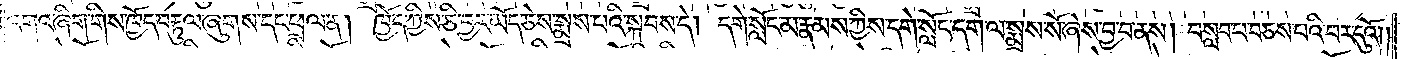འགའ་ཞིག་གིས་ཁྱོད་བརྟུལ་ཞུགས་དང་ཕྲལ་ན། ཁྱོད་ཀྱིས་ཅི་བྱར་ཡོད་ཅེས་སྨྲས་པའི་སྐབས་དེ། དགེ་སློང་མ་རྣམས་ཀྱིས་དགེ་སློང་དག་ལ་སྨྲས་སོ་ཞེས་བྱ་བ་ནས། བསླབ་པ་བཅས་པའི་བར་དུའོ༎
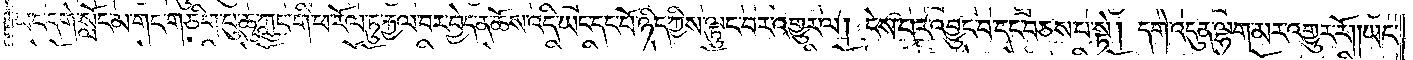ཡང་དགེ་སློང་མ་གང་གཅིག་པུ་ཆུ་ཀླུང་གི་ཕ་རོལ་ཏུ་རྐྱལ་བར་བྱེད་ན་ཆོས་འདི་ཡང་དང་པོ་ཉིད་ཀྱིས་ལྟུང་བར་འགྱུར་ལ། ངེས་པར་འབྱུང་བ་དང་བཅས་པ་སྟེ། དགེ་འདུན་ལྷག་མར་འགྱུར་རོ། །ཡང་
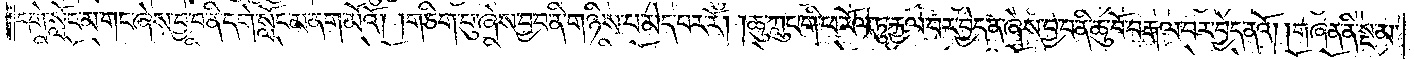དགེ་སློང་མ་གང་ཞེས་བྱ་བ་ནི་དགེ་སློང་མ་ནག་མོའོ། །གཅིག་པུ་ཞེས་བྱ་བ་ནི་གཉིས་པ་མེད་པར་རོ། །ཆུ་ཀླུང་གི་ཕ་རོལ་ཏུ་རྐྱལ་བར་བྱེད་ན་ཞེས་བྱ་བ་ནི་ཆུ་བོ་བརྒལ་བར་བྱེད་ནའོ། །གཞན་ནི་སྔ་མ་
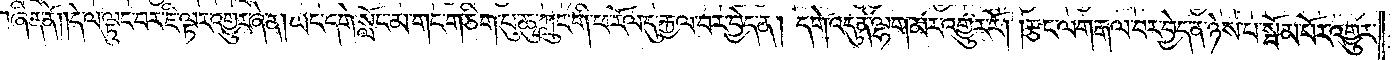བཞིན་ནོ། །དེ་ལ་ལྟུང་བར་ཇི་ལྟར་འགྱུར་ཞེ་ན། ཡང་དགེ་སློང་མ་གང་གཅིག་པུ་ཆུ་ཀླུང་གི་ཕ་རོལ་དུ་རྐྱལ་བར་བྱེད་ན། དགེ་འདུན་ལྷག་མར་འགྱུར་རོ། །རྩང་ལག་རྒལ་བར་བྱེད་ན་ཉེས་པ་སྦོམ་པོར་འགྱུར་
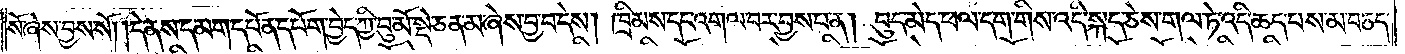སོ་ཞེས་བྱས་སོ། །དེ་ནས་དམག་དཔོན་དཔོག་བྱེད་ཀྱི་བུ་མོ་སྡེ་ཅན་མ་ཞེས་བྱ་བ་དེས། ཁྲིམས་དང་འགལ་བར་བྱས་པ་ན། བུད་མེད་ཕལ་དག་གིས་འདི་སྐད་ཅེས་གལ་ཏེ་འདི་ཆད་པས་མ་བཅད་
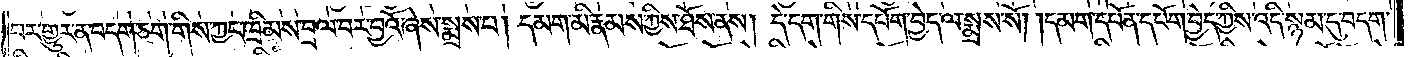པར་གྱུར་ན་བདག་ཅག་གིས་ཀྱང་ཁྲིམས་བྲལ་བར་བྱའོ་ཞེས་སྨྲས་པ། དམག་མི་རྣམས་ཀྱིས་ཐོས་ནས། དེ་དག་གིས་དཔོག་བྱེད་ལ་སྨྲས་སོ། །དམག་དཔོན་དཔོག་བྱེད་ཀྱིས་འདི་སྙམ་དུ་བདག་
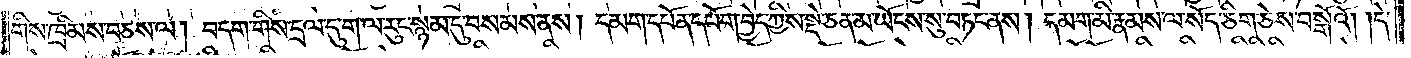གིས་ཁྲིམས་བཅས་ལ། བདག་གིས་དྲལ་དུག་ལ་རུང་སྙམ་དུ་བསམས་ནས། དམག་དཔོན་དཔོག་བྱེད་ཀྱིས་སྡེ་ཅན་མ་ཡོངས་སུ་བཏང་ནས། དམག་མི་རྣམས་ལ་སོད་ཅིག་ཅེས་བསྒོའོ། །དེ་
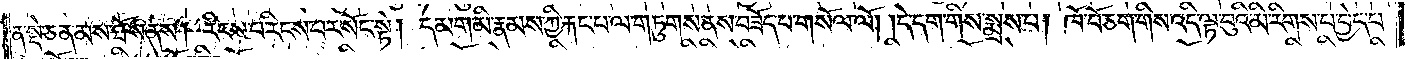ན་སྡེ་ཅན་མས་ཐོས་ནས། རིངས་པ་རིངས་པར་སོང་སྟེ། དམག་མི་རྣམས་ཀྱི་རྐང་པ་ལ་གཏུགས་ནས་བཟོད་པ་གསོལ་ལོ། །དེ་དག་གིས་སྨྲས་པ། ཁོ་བོ་ཅག་གིས་འདི་ལྟ་བུའི་མི་རིགས་པ་བྱེད་པ་
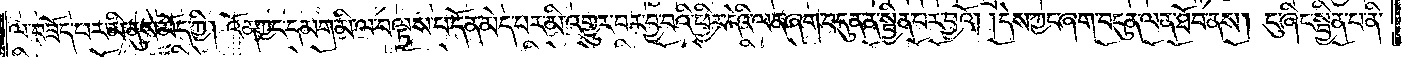ལ་བཟོད་པར་མི་ནུས་མོད་ཀྱི། འོན་ཀྱང་དམག་མི་ལ་བལྟས་པ་དོན་མེད་པར་མི་འགྱུར་བར་བྱ་བའི་ཕྱིར་དེའི་ལན་ཞག་བདུན་ན་སྦྱིན་པར་བྱའོ། །དེས་ཀྱང་ཞག་བདུན་ལན་ཐོབ་ནས། ངུ་ཞིང་སྦྱིན་པ་ནི་
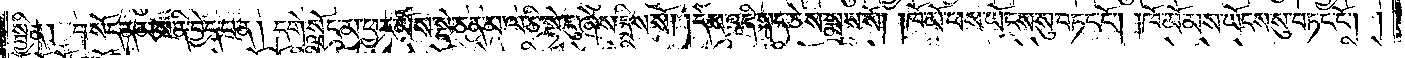སྦྱིན། བསོད་ནམས་ནི་བྱེད་པ་ན། དགེ་སློང་མ་ཕྱར་མོས་སྡེ་ཅན་མ་ལ་ཅི་སྟེ་ངུ་ཞེས་དྲིས་སོ། །དེས་འདི་སྐད་ཅེས་སྨྲས་སོ། །ཁོ་མོ་ཕས་ཡོངས་སུ་བཏང་ངོ༌། །ཁོ་མོ་མས་ཡོངས་སུ་བཏང་ངོ༌། །
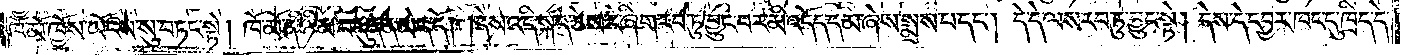ཁོ་མོ་ཁྱོས་ཡོངས་སུ་བཏང་སྟེ། ཁོ་མོ་ནི་ཉི་མ་བདུན་ན་མེད་དོ། །དེས་འདི་སྐད་ཅེས་རེ་ཞིག་རབ་ཏུ་བྱུང་བར་མི་འདོད་དམ་ཞེས་སྨྲས་པ་དང༌། དེ་དེ་ལས་རབ་ཏུ་བྱུང་སྟེ། དེས་དེ་དབྱར་ཁང་དུ་ཁྲིད་དེ་
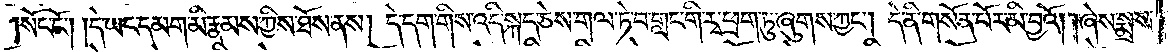སོང་ངོ༌། །དེ་ཡང་དམག་མི་རྣམས་ཀྱིས་ཐོས་ནས། དེ་དག་གིས་འདི་སྐད་ཅེས་གལ་ཏེ་བ་གླང་གི་རྭ་ཕྲག་ཏུ་ཞུགས་ཀྱང༌། དེ་ནི་གསོན་པོར་མི་བྱའོ། །ཞེས་སྨྲས་
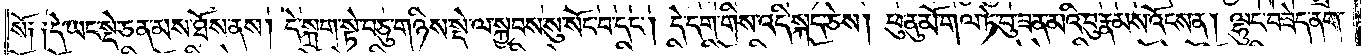སོ༑ ༑དེ་ཡང་སྡེ་ཅན་མས་ཐོས་ནས། དེ་སྐྲག་སྟེ་བཅུ་གཉིས་སྡེ་ལ་སྐྱབས་སུ་སོང་བ་དང༌། དེ་དག་གིས་འདི་སྐད་ཅེས། ཕུ་ནུ་མོ་གལ་ཏེ་པུ་ཟན་མའི་བུ་རྣམས་འོངས་ན། ལྷུང་བཟེད་ནག་
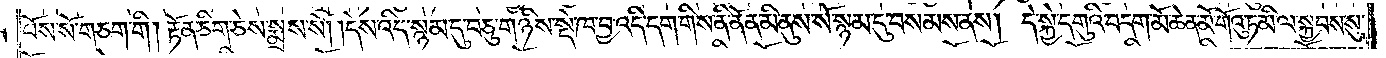པོས་སོ་གཅག་གི། རྟོན་ཅིག་ཅེས་སྨྲས་སོ། །དེས་འདི་སྙམ་དུ་བཅུ་གཉིས་སྡེ་ཁ་བྱ་འདི་དག་གིས་ནི་ནོན་མི་ནུས་སོ་སྙམ་དུ་བསམས་ནས། དེ་སྐྱེ་དགུའི་བདག་མོ་ཆེན་མོ་གོའུ་ཏ་མི་ལ་སྐྱབས་སུ་
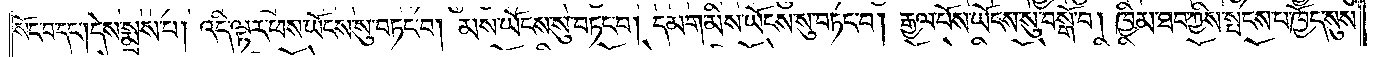སོང་བ་དང༌། དེས་སྨྲས་པ། འདི་ལྟར་ཕས་ཡོངས་སུ་བཏང་བ། མས་ཡོངས་སུ་བཏབ་བ། དམག་མིས་ཡོངས་སུ་བཏང་བ། རྒྱལ་པོས་ཡོངས་སུ་བསྒོ་བ། ཁྱིམ་ཐབ་ཀྱིས་སྤངས་པ་ཁྱོད་སུས་
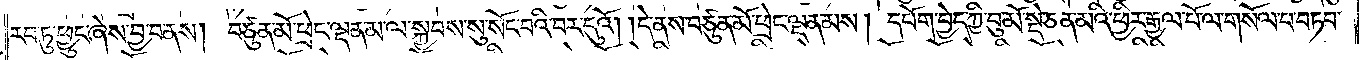རབ་ཏུ་ཕྱུང་ཞེས་བྱ་བ་ནས། བཙུན་མོ་ཕྲེང་ལྡན་མ་ལ་སྐྱབས་སུ་སོང་བའི་བར་དུའོ། །དེ་ནས་བཙུན་མོ་ཕྲེང་ལྡན་མས། དཔོག་བྱེད་ཀྱི་བུ་མོ་སྡེ་ཅན་མའི་ཕྱིར་རྒྱལ་པོ་ལ་གསོལ་བ་བཏབ་
